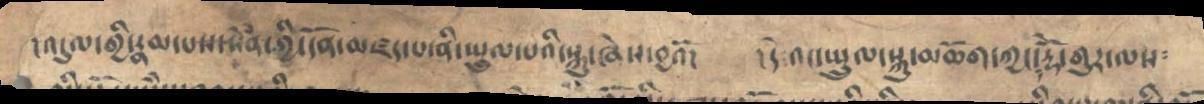།འདུལ་གྱི་རྣམ་པས་སེཾན་གྱི་དོན་མཛད་པ་ནི་སྤྲུལ་པའི་སྐུ་ཞེས་བྱའོ། །དེ འང་སྤྲུལ་སྐུ་མཆོག་ཀྱང་རྡོེ་གུར་ལས༴
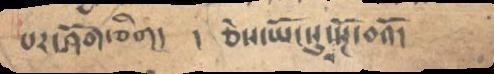པར་ཤོག་ཅིག།  །ཅེས་ཡོངསུ་བསྔ་བའོ།
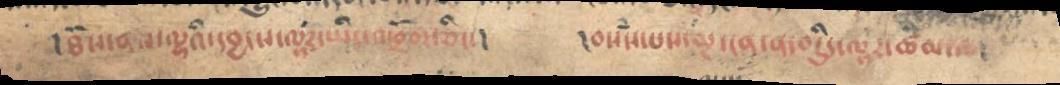།ཐོས་ནས་ལྷའི་དབྱངས་ལྟར་ཡིད་འཕྲོག་ཅིང་།  བསཾས་པས་ལྔ་ངན་ན་བདིུད་ལྟར་ཚིམ་ལ།
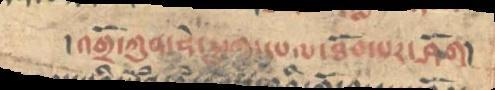།འགྲོ་ཀུན་ཧེ་རུ་ཀ་དཔལ་ཐོབ་པར་ཤོག།
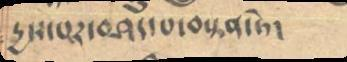རྱས་པར་བཤད་པ་བསྟན་ཏེ།
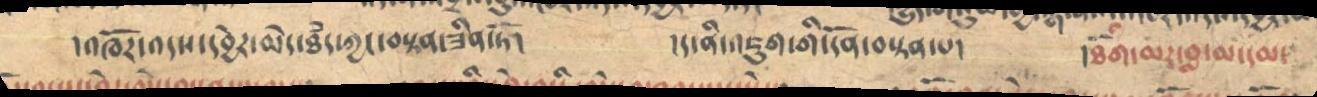།འཁོར་འདས་དབྱེར་མེད་ཐཾད་ཀྱང་བསྟན་ཟིན་ཏོ། །ད་ནི་འཇུག་གི་དོན་བསྟན་པ། །ཐོག་མར་བླ་མ་དམ་
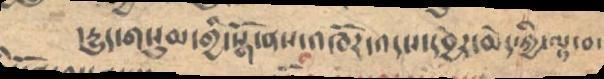།རྱུད་གསུམ་གྱི་སྒོ་ནས་འཁོར་འདས་དབྱེར་མེད་ཀྱི་ལྟ་བ་
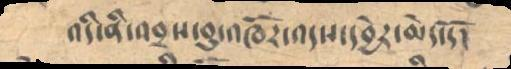འདི་ནི་འབྲས་བུ་འཁོར་འདས་དབྱེར་མེད་དོ།
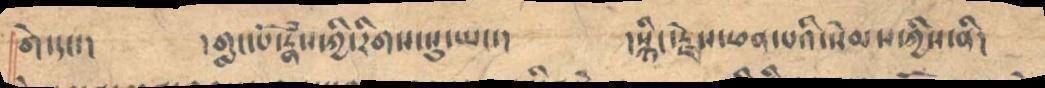གེ་དང་། །གླང་པོ་རྣཾས་ཀྱི་རིགས་སུ་ཡང་། །སྙིང་རྗེས་ཕན་པའི་སེམས་ཀྱིས་ནི།
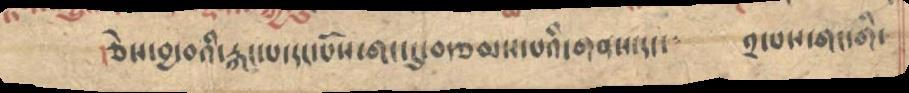།ཅེས་བྱ་བའི་རྐང་པ་དང་པོས་གང་དུ་བརྩམས་པའི་གནས་དང་༴ ༢་པས་གང་གི་
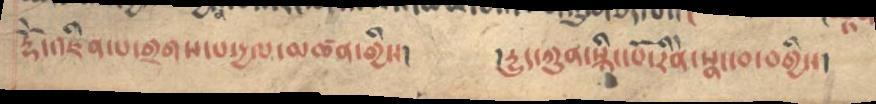རྡོེ་འཛིན་པ་གྲགས་པ་དྱལ་མཚན་གྱིས། །རྱུད་ཀུན་སྙིང་པོ་རིཻན་སྣང་བ་བགྱིས།
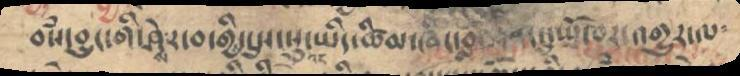བསཾ་བྱུང་གི་ཤེས་ར་བ་གྱིས་དུས་སུ་འང་ཡིད་ཚིམ་ཞིང་བློ་བརྟན་དུ་ཡོང་བར་འགྱུར་ལ༴
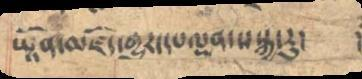ཡྟོན་མཛོད་གྱུར་དཔལྡན་སསྐྱ་རུ།
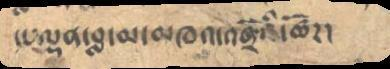དཔལྡན་བླ་མ་མཁའ་འགྲོའི་ཚོཌ།
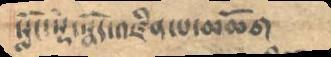སློང་སྡེ་སྣོད་འཛིན་པ་མཆོག
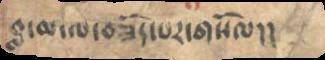བླ་མ་ལ་བཟོད་པར་གསོལ།།
